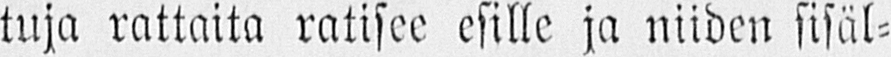tuja rattaita ratisee esille ja niiden sisäl-
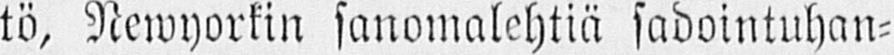tö, Newyorkin sanomalehtiä sadointuhan-
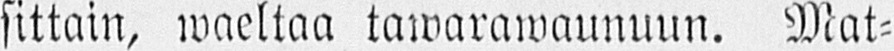sittain, waeltaa tawarawaunuun. Mat-
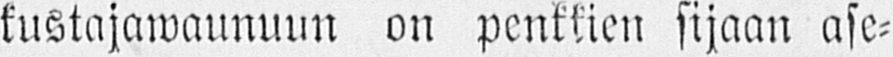kustajawaunuun on penkkien sijaan ase-
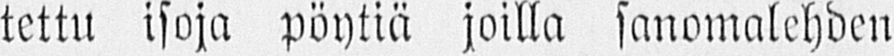tettu isoja pöytiä joilla sanomalehden
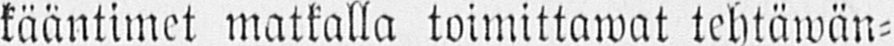kääntimet matkalla toimittamat tehtäwän-
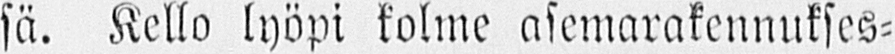sä. Kello lyöpi kolme asemarakennukses-
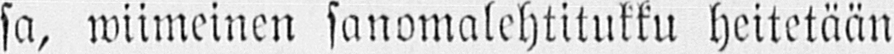sa, wiimeinen sanomalehtituktu heitetään
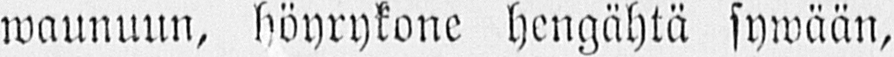waunuun, höyrykone hengähtä sywään,
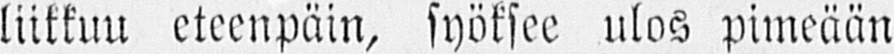liikkuu eteenpäin, syöksee ulos pimeään
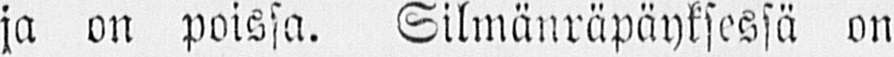ja on poissa. Silmänräpäyksessä on
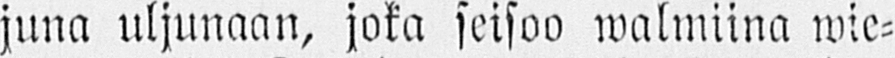juna uljunaan, joka seisoo walmiina wie-
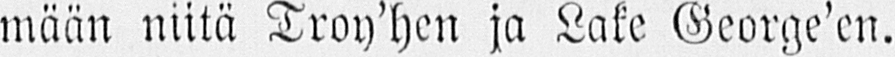mään niitä Troy'hen ja Lake George'en.
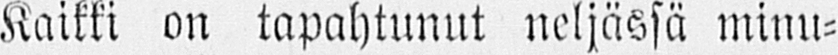Kaikki on tapahtunut neljässä minu-
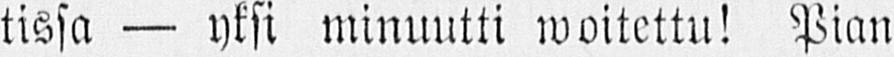tissa — yksi minuutti waitettu! Pian
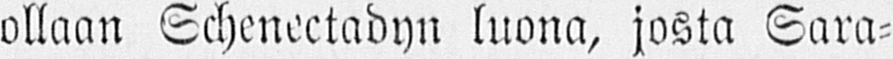ollaan Schenectadyn luona, josta Sara-
